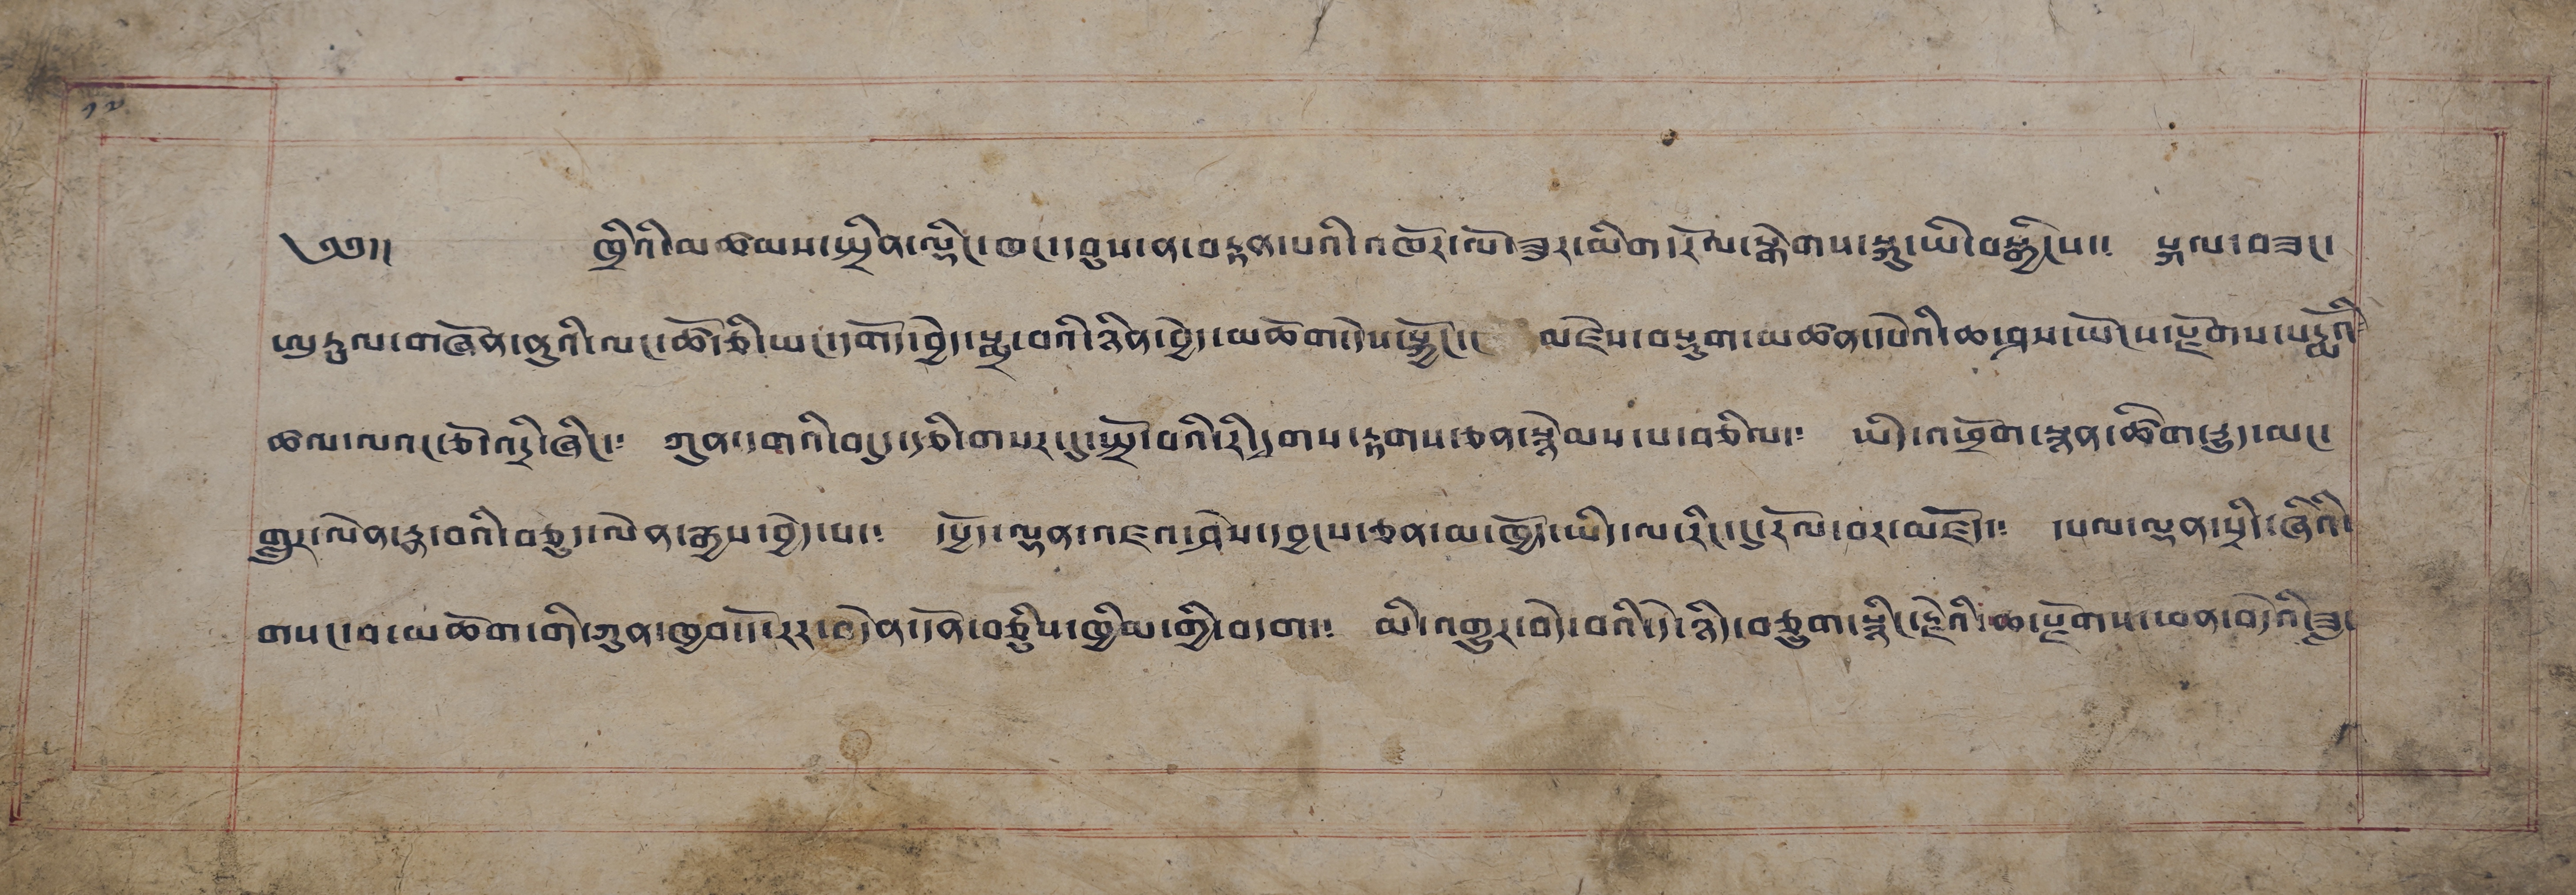༡༧
༄༅།། ཁྲིའི་མཚམས་སྤྲིན་ལྡིང་ཁང་དབུས་ན་བརྟན་པའི་འཁོར་ལོ་ཟུར་མིག་རོལ་སྒེགས་སྐུ་ཡི་བསྒྱིངས་། སྐལ་བཟང་
ཨུ་ཏྤལ་གཞོན་ནུའི་ལང་ཚོ་ཅི་ཡང་དགོད་བྱེད་སྨྲ་བའི་ཉིན་བྱེད་མཆོག་དེས་སྐྱོང་། མཛེས་བསྡུག་མཚན་དཔེའི་ཆ་ཤས་ཡོངས་རྫོགས་པདྨོའི༴
ཚལ་ལའང་ཅོ་འདྲི་ཞིང་༴ ཀུན་དགའི་བདུད་རྩི་གསར་དུ་སྤྲོ་བའི་རི་དྭགས་རྟགས་ཅན་སྙེམས་པ་བཅིལ་༴ ཡིད་འཕྲོག་སྙན་ཚིགས་རྒྱུད་མང་
གླུར་ལེན་རྣ་བའི་བཅུད་ལེན་རྒྱས་བྱེད་པ་༴ དཔྱོད་ལྡན་འཇའ་ཤེས་དབྱངས་ཅན་མ་ཁྱོད་ཡིད་ལ་རིང་དུ་རོལ་བར་མཛོད་༴ དཔལ་ལྡན་སྲིད་ཞིའི་
གསང་བ་མཆོག་གི་ཀུན་ཁྱབ་དོ་རར་བདེན་དོན་བཅིུས་ཁྱིམ་གྱི་བདག་༴ མི་འགྱུར་བདེ་བའི་དེ་ཉི་བཅུག་རྙིང་རྗེའི་ཆ་རྫོགས་ཕན་བདེའི་ཟླ་
